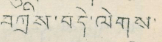བཀྲིས་བདེ་ལེགས་
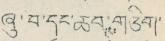ཞུ་བ་དང་ཆབྶ་གཅིག་
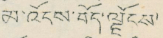མ་འོངས་བོད་ལྗོངས་
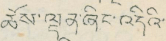ཆོས་ལྡན་ཞིང་འདིའི་
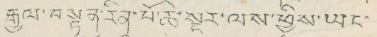རྒྱལ་བསྟན་རིན་པོ་ཆེ་སྔར་ལས་ཕྱིས་ཡང་
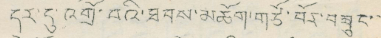དར་དུ་འགྲོ་བའི་ཐབས་མཆོག་གཙོ་བོར་བཟུང་་
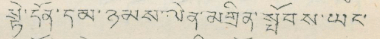སྟེ་དོན་དམ་ཉམས་ལེན་མགྲིན་སྤོབས་ཡང་
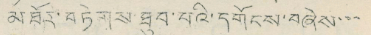མཐོར་བཏེགས་ཐུབ་པའི་དགོངས་བཞེས་་་
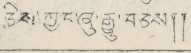ཅིས་ཀྱང་ཞུ་རྒྱུ་བཅས།།
